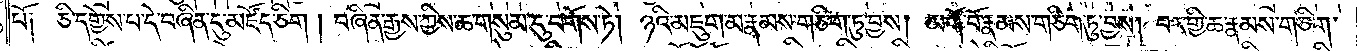པོ༑ ཅི་དགྱེས་པ་དེ་བཞིན་དུ་མཛོད་ཅིག །བཞིན་རྒྱས་ཀྱིས་ཆ་གསུམ་དུ་བགོས་ཏེ། ཉའི་མཇུག་མ་རྣམས་གཅིག་ཏུ་བྱས། མགོ་བོ་རྣམས་གཅིག་ཏུ་བྱས། བར་གྱི་ཆ་རྣམས་གཅིག་
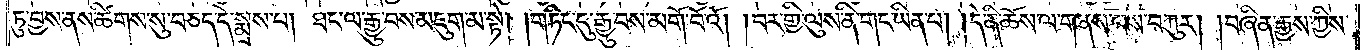ཏུ་བྱས་ནས་ཚིགས་སུ་བཅད་དེ་སྨྲས་པ། ཐང་ལ་རྒྱུ་བས་མཇུག་མ་སྟེ། གཏིང་དུ་རྒྱུ་བས་མགོ་བོའོ། །བར་གྱི་ལུས་ནི་གང་ཡིན་པ། །དེ་ནི་ཆོས་ལ་གནས་པས་བཀུར། །བཞིན་རྒྱས་ཀྱིས་
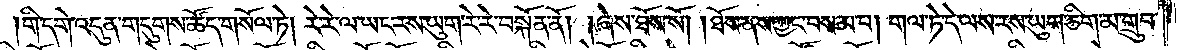གི་དགེ་འདུན་གདུགས་ཚོད་གསོལ་ཏེ། རེ་རེ་ལ་ཡང་རས་ཡུག་རེ་རེ་བསྐོན་ནོ། །ཞེས་ཐོས་སོ། །ཐོས་ནས་ཀྱང་བསམ་པ། གལ་ཏེ་དེ་ལས་རས་ཡུག་ཅིག་མ་གྲུབ་
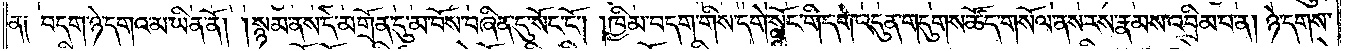ན༑ བདག་ཉེ་དགའམ་ཡིན་ནོ། །སྙམ་ནས་དེ་མགྲོན་དུ་མ་བོས་བཞིན་དུ་སོང་ངོ༌། །ཁྱིམ་བདག་གིས་དགེ་སློང་གི་དགེ་འདུན་གདུགས་ཚོད་གསོལ་ནས་རས་རྣམས་འབྲིམ་པ་ན། ཉེ་དགས་
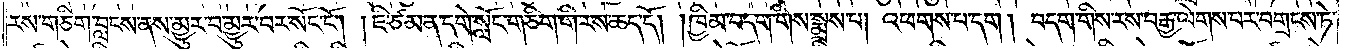རས་གཅིག་བླངས་ནས་མྱུར་བ་མྱུར་བར་སོང་ངོ༌། །ཇི་ཙམ་ན་དགེ་སློང་གཅིག་གི་རས་ཆད་དོ། །ཁྱིམ་བདག་གིས་སྨྲས་པ། འཕགས་པ་དག །བདག་གིས་རས་བརྒྱ་ལེགས་པར་བགྲངས་ཏེ་
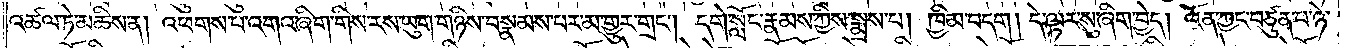འཚལ་ཏེ་མཆིས་ན། འཕགས་པ་འགའ་ཞིག་གིས་རས་ཡུག་གཉིས་བསྣམས་པར་མ་གྱུར་གྲང༌། དགེ་སློང་རྣམས་ཀྱིས་སྨྲས་པ། ཁྱིམ་བདག །དེ་ལྟར་སུ་ཞིག་བྱེད། འོན་ཀྱང་བཙུན་པ་ཉེ་
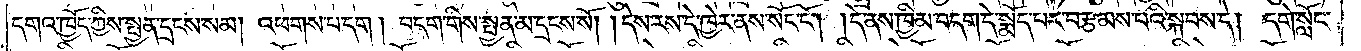དགའ་ཁྱོད་ཀྱིས་སྤྱན་དྲངས་སམ། འཕགས་པ་དག །བདག་གིས་སྤྱན་མ་དྲངས་སོ། །དེས་རས་དེ་ཁྱེར་ནས་སོང་ངོ༌། །དེ་ནས་ཁྱིམ་བདག་དེ་སྨོད་པར་བརྩམས་པའི་སྐབས་དེ། དགེ་སློང་
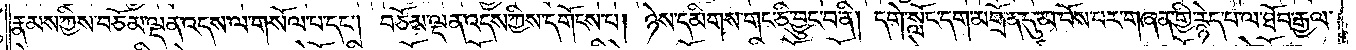རྣམས་ཀྱིས་བཅོམ་ལྡན་འདས་ལ་གསོལ་པ་དང༌། བཅོམ་ལྡན་འདས་ཀྱིས་དགོངས་པ། ཉེས་དམིགས་གང་ཅི་བྱུང་བ་ནི། དགེ་སློང་དག་མགྲོན་དུ་མ་བོས་པར་གཞན་གྱི་རྙེད་པ་ལ་ཐོབ་རྒྱལ་
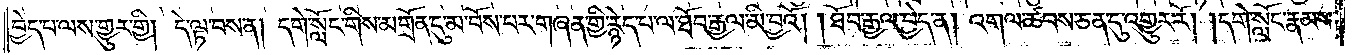བྱེད་པ་ལས་གྱུར་གྱི། དེ་ལྟ་བས་ན། དགེ་སློང་གིས་མགྲོན་དུ་མ་བོས་པར་གཞན་གྱི་རྙེད་པ་ལ་ཐོབ་རྒྱལ་མི་བྱའོ། །ཐོབ་རྒྱལ་བྱེད་ན། འགལ་ཚབས་ཅན་དུ་འགྱུར་རོ། །དགེ་སློང་རྣམས་
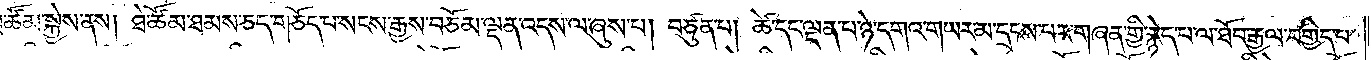ཐེ་ཚོམ་སྐྱེས་ནས། ཐེ་ཚོམ་ཐམས་ཅད་གཅོད་པ་སངས་རྒྱས་བཅོམ་ལྡན་འདས་ལ་ཞུས་པ། བཙུན་པ། ཚེ་དང་ལྡན་པ་ཉེ་དགའ་གཡར་མ་དྲངས་པར་གཞན་གྱི་རྙེད་པ་ལ་ཐོབ་རྒྱལ་བགྱིད་པ་
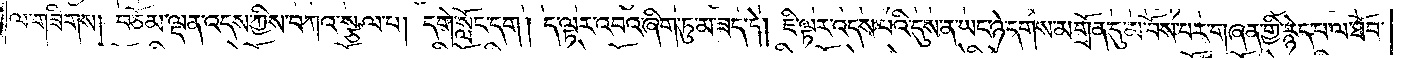ལ་གཟིགས། བཅོམ་ལྡན་འདས་ཀྱིས་བཀའ་སྩལ་པ། དགེ་སློང་དག །ད་ལྟར་འབའ་ཞིག་ཏུ་མ་ཟད་དེ། ཇི་ལྟར་འདས་པའི་དུས་ན་ཡང་ཉེ་དགས་མགྲོན་དུ་མ་བོས་པར་གཞན་གྱི་རྙེད་པ་ལ་ཐོབ་
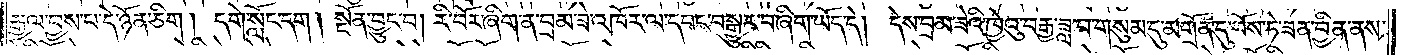རྒྱལ་བྱས་པ་དེ་ཉོན་ཅིག །དགེ་སློང་དག །སྔོན་བྱུང་བ། རི་བོར་ཞིག་ན་བྲམ་ཟེ་འཁོར་ལ་དབང་བསྒྱུར་བ་ཞིག་ཡོད་དེ། དེས་བྲམ་ཟེའི་ཁྱེའུ་བརྒྱ་ཟླ་བ་གསུམ་དུ་མགྲོན་དུ་བོས་ཏེ་ཟན་བྱིན་ནས་
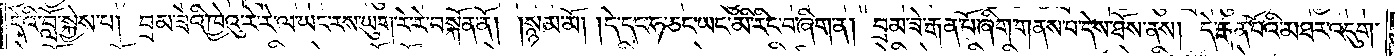དེའི་བློ་སྐྱེས་པ། བྲམ་ཟེའི་ཁྱེའུ་རེ་རེ་ལ་ཡང་རས་ཡུག་རེ་རེ་བསྐོན་ནོ། །སྙམ་མོ། །དེ་དང་ཧ་ཅང་ཡང་མི་རིང་བ་ཞིག་ན། བྲམ་ཟེ་རྒན་པོ་ཞིག་གནས་པ་དེས་ཐོས་ནས། དེ་རྒན་པོའི་མཐར་འདུག་
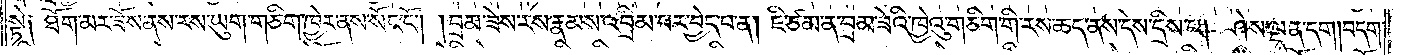སྟེ། ཐོག་མར་ཟོས་ནས་རས་ཡུག་གཅིག་ཁྱེར་ནས་སོང་ངོ༌། །བྲམ་ཟེས་རས་རྣམས་འབྲིམ་པར་བྱེད་པ་ན། ཇི་ཙམ་ན་བྲམ་ཟེའི་ཁྱེའུ་གཅིག་གི་རས་ཆད་ནས་དེས་དྲིས་པ། ཤེས་ལྡན་དག །བདག་
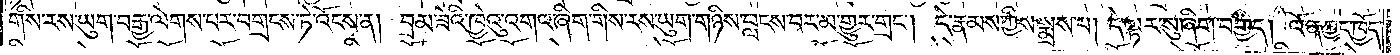གིས་རས་ཡུག་བརྒྱ་ལེགས་པར་བགྲངས་ཏེ་འོངས་ན། བྲམ་ཟེའི་ཁྱེའུ་འགའ་ཞིག་གིས་རས་ཡུག་གཉིས་བླངས་བར་མ་གྱུར་གྲང༌། དེ་རྣམས་ཀྱིས་སྨྲས་པ། དེ་ལྟར་སུ་ཞིག་བགྱིད། འོན་ཀྱང་ཁྱོད་
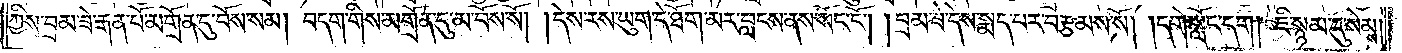ཀྱིས་བྲམ་ཟེ་རྒན་པོ་མགྲོན་དུ་བོས་སམ། བདག་གིས་མགྲོན་དུ་མ་བོས་སོ། །དེས་རས་ཡུག་དེ་ཐོག་མར་བླངས་ནས་སོང་ངོ༌། །བྲམ་ཟེ་དེས་སྨད་པར་བརྩམས་སོ། །དགེ་སློང་དག །ཇི་སྙམ་དུ་སེམས་
